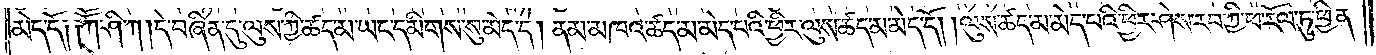མེད་དོ༏ ༏ཀཽ་ཤི་ཀ། དེ་བཞིན་དུ་ལུས་ཀྱི་ཚད་མ་ཡང་དམིགས་སུ་མེད་དེ། ནམ་མཁའ་ཚད་མ་མེད་པའི་ཕྱིར་ལུས་ཚད་མ་མེད་དོ། །ལུས་ཚད་མ་མེད་པའི་ཕྱིར་ཤེས་རབ་ཀྱི་ཕ་རོལ་ཏུ་ཕྱིན་
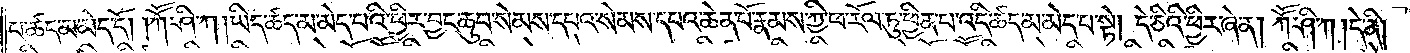པ་ཚད་མ་མེད་དོ། །ཀཽ་ཤི་ཀ །ཡིད་ཚད་མ་མེད་པའི་ཕྱིར་བྱང་ཆུབ་སེམས་དཔའ་སེམས་དཔའ་ཆེན་པོ་རྣམས་ཀྱི་ཕ་རོལ་ཏུ་ཕྱིན་པ་འདི་ཚད་མ་མེད་པ་སྟེ། དེ་ཅིའི་ཕྱིར་ཞེ་ན། ཀཽ་ཤི་ཀ །དེ་ནི།
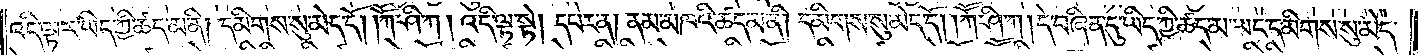འདི་ལྟར་ཡིད་ཀྱི་ཚད་མ་ནི། དམིགས་སུ་མེད་དོ། །ཀཽ་ཤི་ཀ། འདི་ལྟ་སྟེ། དཔེར་ན། ནམ་མཁའི་ཚད་མ་ནི། དམིགས་སུ་མེད་དོ། །ཀཽ་ཤི་ཀ །དེ་བཞིན་དུ་ཡིད་ཀྱི་ཚད་མ་ཡང་དམིགས་སུ་མེད་
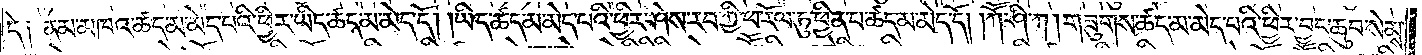དེ༏ ནམ་མཁའ་ཚད་མ་མེད་པའི་ཕྱིར་ཡིད་ཚད་མ་མེད་དོ། །ཡིད་ཚད་མ་མེད་པའི་ཕྱིར་ཤེས་རབ་ཀྱི་ཕ་རོལ་ཏུ་ཕྱིན་པ་ཚད་མ་མེད་དོ། །ཀཽ་ཤི་ཀ། གཟུགས་ཚད་མ་མེད་པའི་ཕྱིར་བྱང་ཆུབ་སེམས་
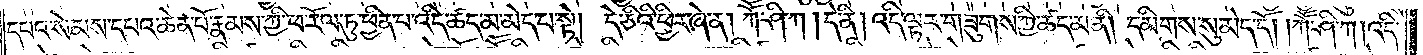དཔའ་སེམས་དཔའ་ཆེན་པོ་རྣམས་ཀྱི་ཕ་རོལ་ཏུ་ཕྱིན་པ་འདི་ཚད་མ་མེད་པ་སྟེ། དེ་ཅིའི་ཕྱིར་ཞེ་ན། ཀཽ་ཤི་ཀ །དེ་ནི། འདི་ལྟར་གཟུགས་ཀྱི་ཚད་མ་ནི། དམིགས་སུ་མེད་དོ། །ཀཽ་ཤི་ཀ། འདི་
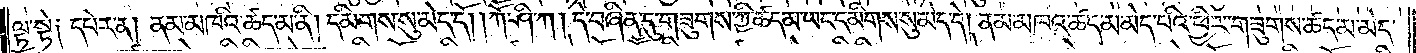ལྟ་སྟེ༏ དཔེར་ན། ནམ་མཁའི་ཚད་མ་ནི། དམིགས་སུ་མེད་དོ། །ཀཽ་ཤི་ཀ། དེ་བཞིན་དུ་གཟུགས་ཀྱི་ཚད་མ་ཡང་དམིགས་སུ་མེད་དེ། ནམ་མཁའ་ཚད་མ་མེད་པའི་ཕྱིར་གཟུགས་ཚད་མ་མེད་
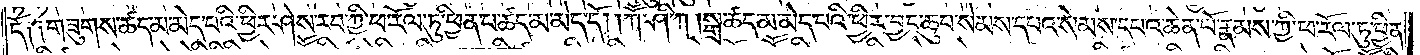དོ༏ ༏གཟུགས་ཚད་མ་མེད་པའི་ཕྱིར་ཤེས་རབ་ཀྱི་ཕ་རོལ་ཏུ་ཕྱིན་པ་ཚད་མ་མེད་དོ། །ཀཽ་ཤི་ཀ །སྒྲ་ཚད་མ་མེད་པའི་ཕྱིར་བྱང་ཆུབ་སེམས་དཔའ་སེམས་དཔའ་ཆེན་པོ་རྣམས་ཀྱི་ཕ་རོལ་ཏུ་ཕྱིན་
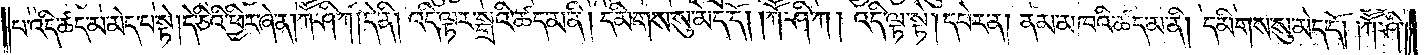པ་འདི་ཚད་མ་མེད་པ་སྟེ། དེ་ཅིའི་ཕྱིར་ཞེ་ན། ཀཽ་ཤི་ཀ། དེ་ནི། འདི་ལྟར་སྒྲའི་ཚད་མ་ནི། དམིགས་སུ་མེད་དོ། །ཀཽ་ཤི་ཀ། འདི་ལྟ་སྟེ། དཔེར་ན། ནམ་མཁའི་ཚད་མ་ནི། དམིགས་སུ་མེད་དོ། །ཀཽ་ཤི་
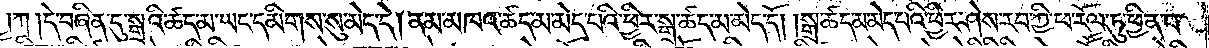ཀ ༏དེ་བཞིན་དུ་སྒྲའི་ཚད་མ་ཡང་དམིགས་སུ་མེད་དེ། ནམ་མཁའ་ཚད་མ་མེད་པའི་ཕྱིར་སྒྲ་ཚད་མ་མེད་དོ། །སྒྲ་ཚད་མ་མེད་པའི་ཕྱིར་ཤེས་རབ་ཀྱི་ཕ་རོལ་ཏུ་ཕྱིན་པ་
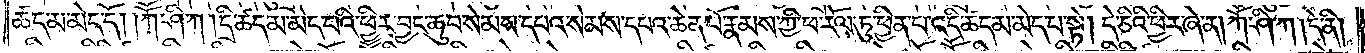ཚད་མ་མེད་དོ། །ཀཽ་ཤི་ཀ །དྲི་ཚད་མ་མེད་པའི་ཕྱིར་བྱང་ཆུབ་སེམས་དཔའ་སེམས་དཔའ་ཆེན་པོ་རྣམས་ཀྱི་ཕ་རོལ་ཏུ་ཕྱིན་པ་འདི་ཚད་མ་མེད་པ་སྟེ། དེ་ཅིའི་ཕྱིར་ཞེ་ན། ཀཽ་ཤི་ཀ །དེ་ནི།
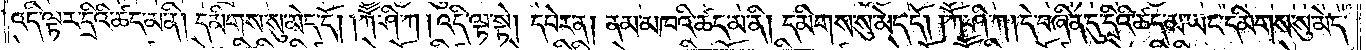འདི་ལྟར་དྲིའི་ཚད་མ་ནི། དམིགས་སུ་མེད་དོ། །ཀཽ་ཤི་ཀ །འདི་ལྟ་སྟེ། དཔེར་ན། ནམ་མཁའི་ཚད་མ་ནི། དམིགས་སུ་མེད་དོ། །ཀཽ་ཤི་ཀ། དེ་བཞིན་དུ་དྲིའི་ཚད་མ་ཡང་དམིགས་སུ་མེད་
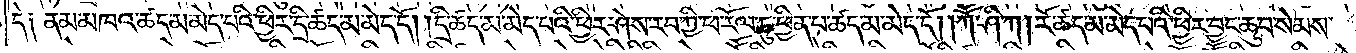དེ༏ ནམ་མཁའ་ཚད་མ་མེད་པའི་ཕྱིར་དྲི་ཚད་མ་མེད་དོ། །དྲི་ཚད་མ་མེད་པའི་ཕྱིར་ཤེས་རབ་ཀྱི་ཕ་རོལ་ཏུ་ཕྱིན་པ་ཚད་མ་མེད་དོ། །ཀཽ་ཤི་ཀ། རོ་ཚད་མ་མེད་པའི་ཕྱིར་བྱང་ཆུབ་སེམས་
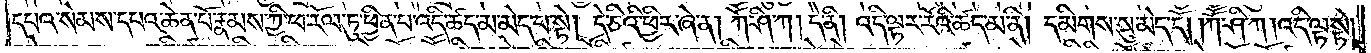དཔའ་སེམས་དཔའ་ཆེན་པོ་རྣམས་ཀྱི་ཕ་རོལ་ཏུ་ཕྱིན་པ་འདི་ཚད་མ་མེད་པ་སྟེ། དེ་ཅིའི་ཕྱིར་ཞེ་ན། ཀཽ་ཤི་ཀ། དེ་ནི། འདི་ལྟར་རོའི་ཚད་མ་ནི། དམིགས་སུ་མེད་དོ། །ཀཽ་ཤི་ཀ། འདི་ལྟ་སྟེ།
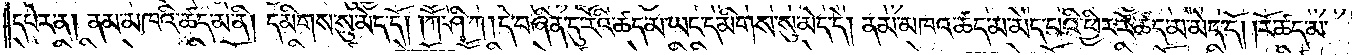དཔེར་ན། ནམ་མཁའི་ཚད་མ་ནི། དམིགས་སུ་མེད་དོ། །ཀཽ་ཤི་ཀ །དེ་བཞིན་དུ་རོའི་ཚད་མ་ཡང་དམིགས་སུ་མེད་དེ། ནམ་མཁའ་ཚད་མ་མེད་པའི་ཕྱིར་རོ་ཚད་མེད་དོ། །རོ་ཚད་མ་
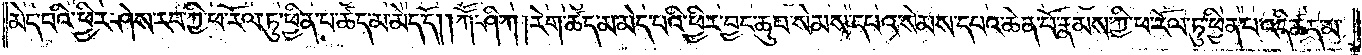མེད་པའི་ཕྱིར་ཤེས་རབ་ཀྱི་ཕ་རོལ་ཏུ་ཕྱིན་པ་ཚད་མ་མེད་དོ། །ཀཽ་ཤི་ཀ །རེག་ཚད་མ་མེད་པའི་ཕྱིར་བྱང་ཆུབ་སེམས་དཔའ་སེམས་དཔའ་ཆེན་པོ་རྣམས་ཀྱི་ཕ་རོལ་ཏུ་ཕྱིན་པ་འདི་ཚད་མ་
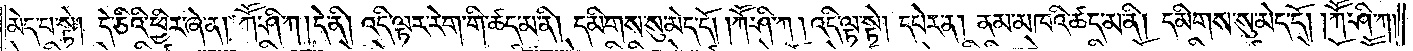མེད་པ་སྟེ། དེ་ཅིའི་ཕྱིར་ཞེ་ན། ཀཽ་ཤི་ཀ །དེ་ནི། འདི་ལྟར་རེག་གི་ཚད་མ་ནི། དམིགས་སུ་མེད་དོ། །ཀཽ་ཤི་ཀ །འདི་ལྟ་སྟེ། དཔེར་ན། ནམ་མཁའི་ཚད་མ་ནི། དམིགས་སུ་མེད་དོ། །ཀཽ་ཤི་ཀ་
